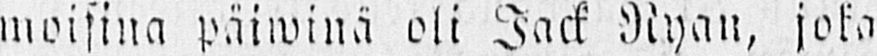moisina päiwinä oli Jack Nyan, joka
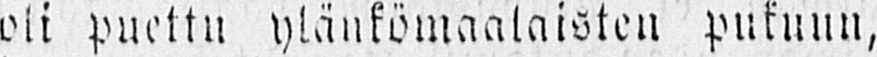oli puettu, ylänkömaalaisten pukuun,
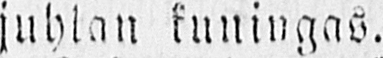juhlan kuningas.
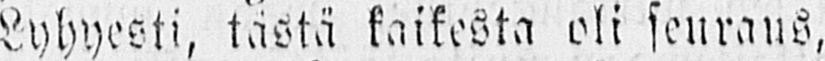Lyhyesti, tästä kaikesta oli seuraus,
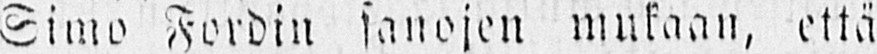Simo Fordin sanojen mukaan, että
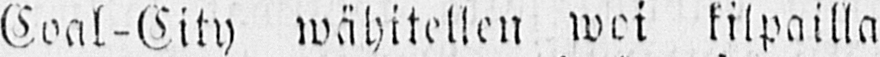Coal-City wähitellen woi kilpailla
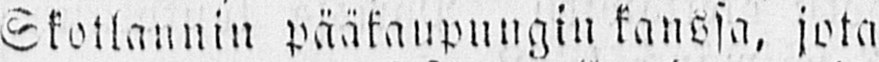Skotlannin pääkaupungin kanssa, jota
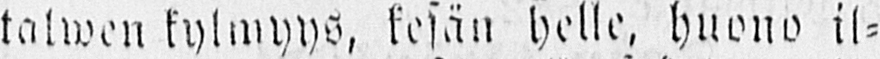talwen kylmyys, kesän helle, huono il-
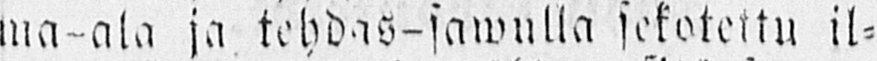ma-ala ja tehdas-sawulla sekotettu, ik-
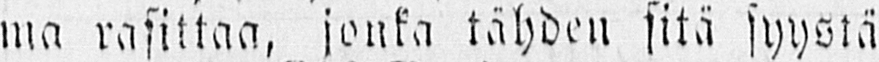ma rasittaa, jonka tähden sitä syystä
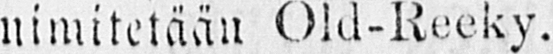nimitetään Old-Reeky.
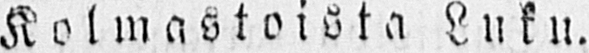Kolmastoista Luku.
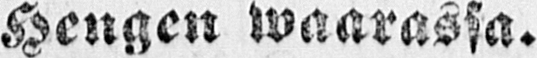Hengen waarassa.
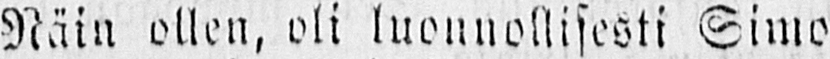Näin ollen, oli luonnollisesti Simo
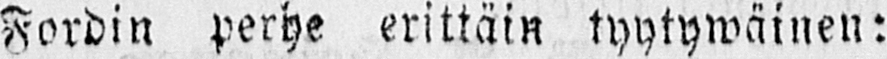Fordin perhe erittäin tyytywäinen:
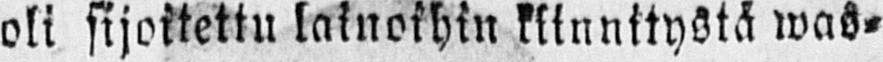oli sijoitettu lainoihin kiinnitystä was-
